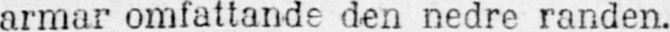armar omfattande den nedre randen.
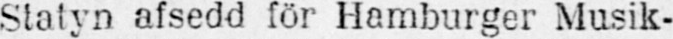Statyn afsedd för Hamburger Musik-
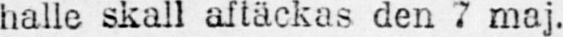halle skall aftäckas den 7 maj.
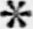*
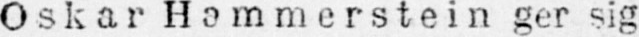Oskar Hammerstein ger sig
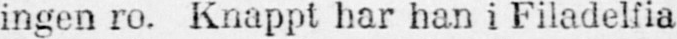ingen ro. Knappt har han i Filadelfia
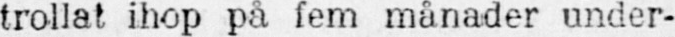trollat ihop på fem månader under-
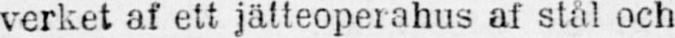verket af ett jätteoperahus af stål och
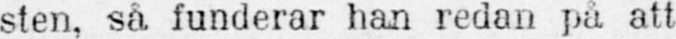sten, så funderar han redan på att
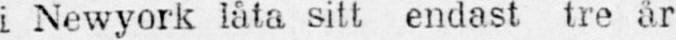i Newyork låta sitt endast tre år
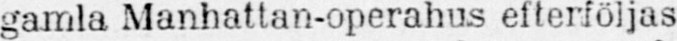gamla Manhattan-operahus efterföljas
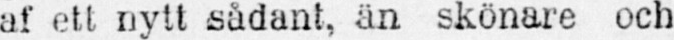af ett nytt sådant, än skönare och
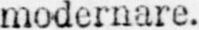modernare.
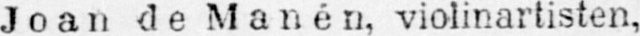Joan de Manén, violinartisten,
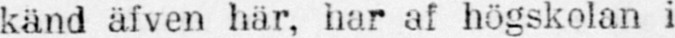känd äfven här, har af högskolan i
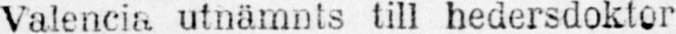Valencia utnämnts till hedersdoktor
